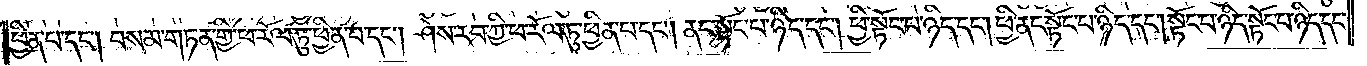ཕྱིན་པ་དང༌། བསམ་གཏན་གྱི་ཕ་རོལ་ཏུ་ཕྱིན་པ་དང༌། ཤེས་རབ་ཀྱི་ཕ་རོལ་ཏུ་ཕྱིན་པ་དང༌། ནང་སྟོང་པ་ཉིད་དང༌། ཕྱི་སྟོང་པ་ཉིད་དང༌། ཕྱི་ནང་སྟོང་པ་ཉིད་དང༌། སྟོང་པ་ཉིད་སྟོང་པ་ཉིད་དང་
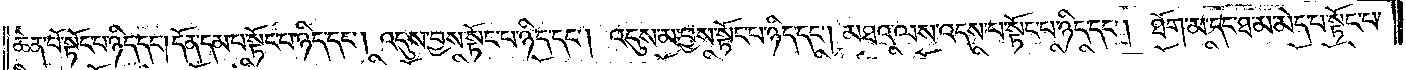ཆེན་པོ་སྟོང་པ་ཉིད་དང༌། དོན་དམ་པ་སྟོང་པ་ཉིད་དང༌། འདུས་བྱས་སྟོང་པ་ཉིད་དང༌། འདུས་མ་བྱས་སྟོང་པ་ཉིད་དང༌། མཐའ་ལས་འདས་པ་སྟོང་པ་ཉིད་དང༌། ཐོག་མ་དང་ཐ་མ་མེད་པ་སྟོང་པ་
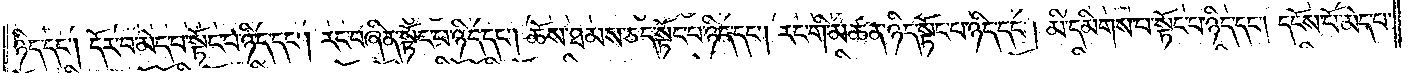ཉིད་དང༌། དོར་བ་མེད་པ་སྟོང་པ་ཉིད་དང༌། རང་བཞིན་སྟོང་པ་ཉིད་དང༌། ཆོས་ཐམས་ཅད་སྟོང་པ་ཉིད་དང༌། རང་གི་མཚན་ཉིད་སྟོང་པ་ཉིད་དང༌། མི་དམིགས་པ་སྟོང་པ་ཉིད་དང༌། དངོས་པོ་མེད་པ་
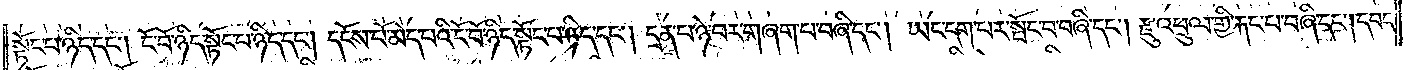སྟོང་པ་ཉིད་དང༌། ངོ་བོ་ཉིད་སྟོང་པ་ཉིད་དང༌། དངོས་པོ་མེད་པའི་ངོ་བོ་ཉིད་སྟོང་པ་ཉིད་དང༌། དྲན་པ་ཉེ་བར་གཞག་པ་བཞི་དང༌། ཡང་དག་པར་སྦོང་བ་བཞི་དང༌། རྫུ་འཕྲུལ་གྱི་རྐང་པ་བཞི་དང༌། དབང་
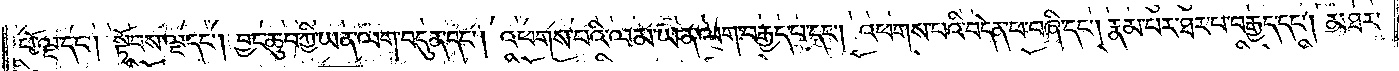པོ་ལྔ་དང༌། སྟོབས་ལྔ་དང༌། བྱང་ཆུབ་ཀྱི་ཡན་ལག་བདུན་དང༌། འཕགས་པའི་ལམ་ཡན་ལག་བརྒྱད་པ་དང༌། འཕགས་པའི་བདེན་པ་བཞི་དང༌། རྣམ་པར་ཐར་པ་བརྒྱད་དང༌། མཐར་
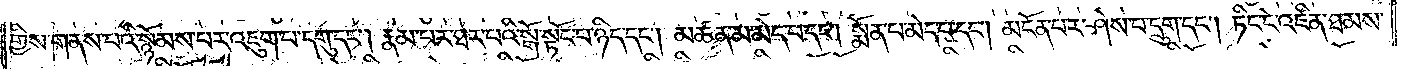གྱིས་གནས་པའི་སྙོམས་པར་འཇུག་པ་དགུ་དང༌། རྣམ་པར་ཐར་པའི་སྒོ་སྟོང་པ་ཉིད་དང༌། མཚན་མ་མེད་པ་དང༌། སྨོན་པ་མེད་པ་དང༌། མངོན་པར་ཤེས་པ་དྲུག་དང༌། ཏིང་ངེ་འཛིན་ཐམས་
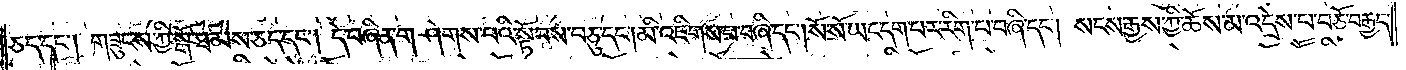ཅད་དང༌། གཟུངས་ཀྱི་སྒོ་ཐམས་ཅད་དང༌། དེ་བཞིན་གཤེགས་པའི་སྟོབས་བཅུ་དང༌། མི་འཇིགས་པ་བཞི་དང༌། སོ་སོ་ཡང་དག་པར་རིག་པ་བཞི་དང༌། སངས་རྒྱས་ཀྱི་ཆོས་མ་འདྲེས་པ་བཅོ་བརྒྱད་
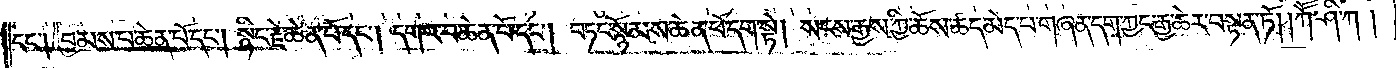དང༌། བྱམས་པ་ཆེན་པོ་དང༌། སྙིང་རྗེ་ཆེན་པོ་དང༌། དགའ་བ་ཆེན་པོ་དང༌། བཏང་སྙོམས་ཆེན་པོ་དག་སྟེ། སངས་རྒྱས་ཀྱི་ཆོས་ཚད་མེད་པ་གཞན་དག་ཀྱང་རྒྱ་ཆེར་བསྟན་ཏོ། །ཀཽ་ཤི་ཀ།
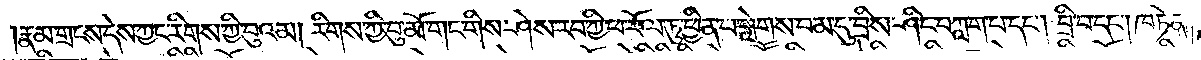རྣམ་གྲངས་དེས་ཀྱང་རིགས་ཀྱི་བུའམ། རིགས་ཀྱི་བུ་མོ་གང་གིས་ཤེས་རབ་ཀྱི་ཕ་རོལ་ཏུ་ཕྱིན་པ་གླེགས་བམ་དུ་བྲིས་ཤིང་བཀླག་པ་དང༌། བྲི་བ་དང༌། ཁ་ཏོན་
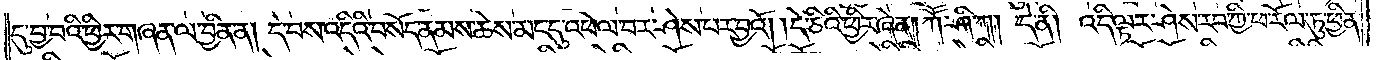དུ་བྱ་བའི་ཕྱིར་གཞན་ལ་བྱིན་ན། དེ་བས་འདིའི་བསོད་ནམས་ཆེས་མང་དུ་འཕེལ་བར་ཤེས་པར་བྱའོ། །དེ་ཅིའི་ཕྱིར་ཞེ་ན། ཀཽ་ཤི་ཀ། དེ་ནི། འདི་ལྟར་ཤེས་རབ་ཀྱི་ཕ་རོལ་ཏུ་ཕྱིན་
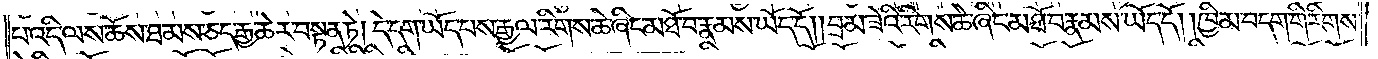པ་འདི་ལས་ཆོས་ཐམས་ཅད་རྒྱ་ཆེར་བསྟན་ཏེ། དེ་དག་ཡོད་པས་རྒྱལ་རིགས་ཆེ་ཞིང་མཐོ་བ་རྣམས་ཡོད་དོ། །བྲམ་ཟེའི་རིགས་ཆེ་ཞིང་མཐོ་བ་རྣམས་ཡོད་དོ། །ཁྱིམ་བདག་གི་རིགས་
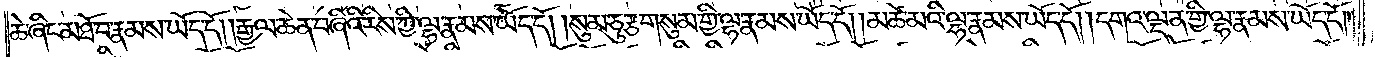ཆེ་ཞིང་མཐོ་བ་རྣམས་ཡོད་དོ། །རྒྱལ་ཆེན་བཞིའི་རིས་ཀྱི་ལྷ་རྣམས་ཡོད་དོ། །སུམ་ཅུ་རྩ་གསུམ་གྱི་ལྷ་རྣམས་ཡོད་དོ། །མཚོ་མའི་ལྷ་རྣམས་ཡོད་དོ། །དགའ་ལྡན་གྱི་ལྷ་རྣམས་ཡོད་དོ། །
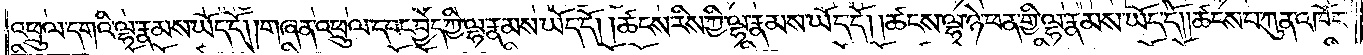འཕྲུལ་དགའི་ལྷ་རྣམས་ཡོད་དོ། །གཞན་འཕྲུལ་དབང་བྱེད་ཀྱི་ལྷ་རྣམས་ཡོད་དོ། །ཚངས་རིས་ཀྱི་ལྷ་རྣམས་ཡོད་དོ། །ཚངས་ལྷ་ཉེ་ཕན་གྱི་ལྷ་རྣམས་ཡོད་དོ། །ཚངས་པ་ཀུན་འཁོར་
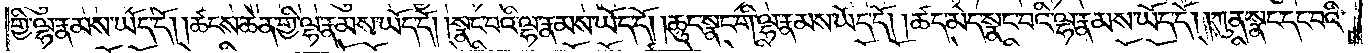གྱི་ལྷ་རྣམས་ཡོད་དོ། །ཚངས་ཆེན་གྱི་ལྷ་རྣམས་ཡོད་དོ། །སྣང་བའི་ལྷ་རྣམས་ཡོད་དོ། །ཆུང་སྣང་གི་ལྷ་རྣམས་ཡོད་དོ། །ཚད་མེད་སྣང་བའི་ལྷ་རྣམས་ཡོད་དོ། །ཀུན་སྣང་དང་བའི་
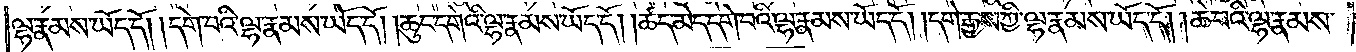ལྷ་རྣམས་ཡོད་དོ། །དགེ་བའི་ལྷ་རྣམས་ཡོད་དོ། །ཆུང་དགེའི་ལྷ་རྣམས་ཡོད་དོ། །ཚད་མེད་དགེ་བའི་ལྷ་རྣམས་ཡོད་དོ། །དགེ་རྒྱས་ཀྱི་ལྷ་རྣམས་ཡོད་དོ། །ཆེ་བའི་ལྷ་རྣམས་
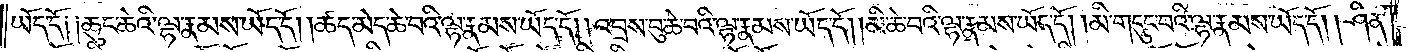ཡོད་དོ༑ ༑ཆུང་ཆེའི་ལྷ་རྣམས་ཡོད་དོ། །ཚད་མེད་ཆེ་བའི་ལྷ་རྣམས་ཡོད་དོ། །འབྲས་བུ་ཆེ་བའི་ལྷ་རྣམས་ཡོད་དོ། །མི་ཆེ་བའི་ལྷ་རྣམས་ཡོད་དོ། །མི་གདུང་བའི་ལྷ་རྣམས་ཡོད་དོ། །ཤིན་
